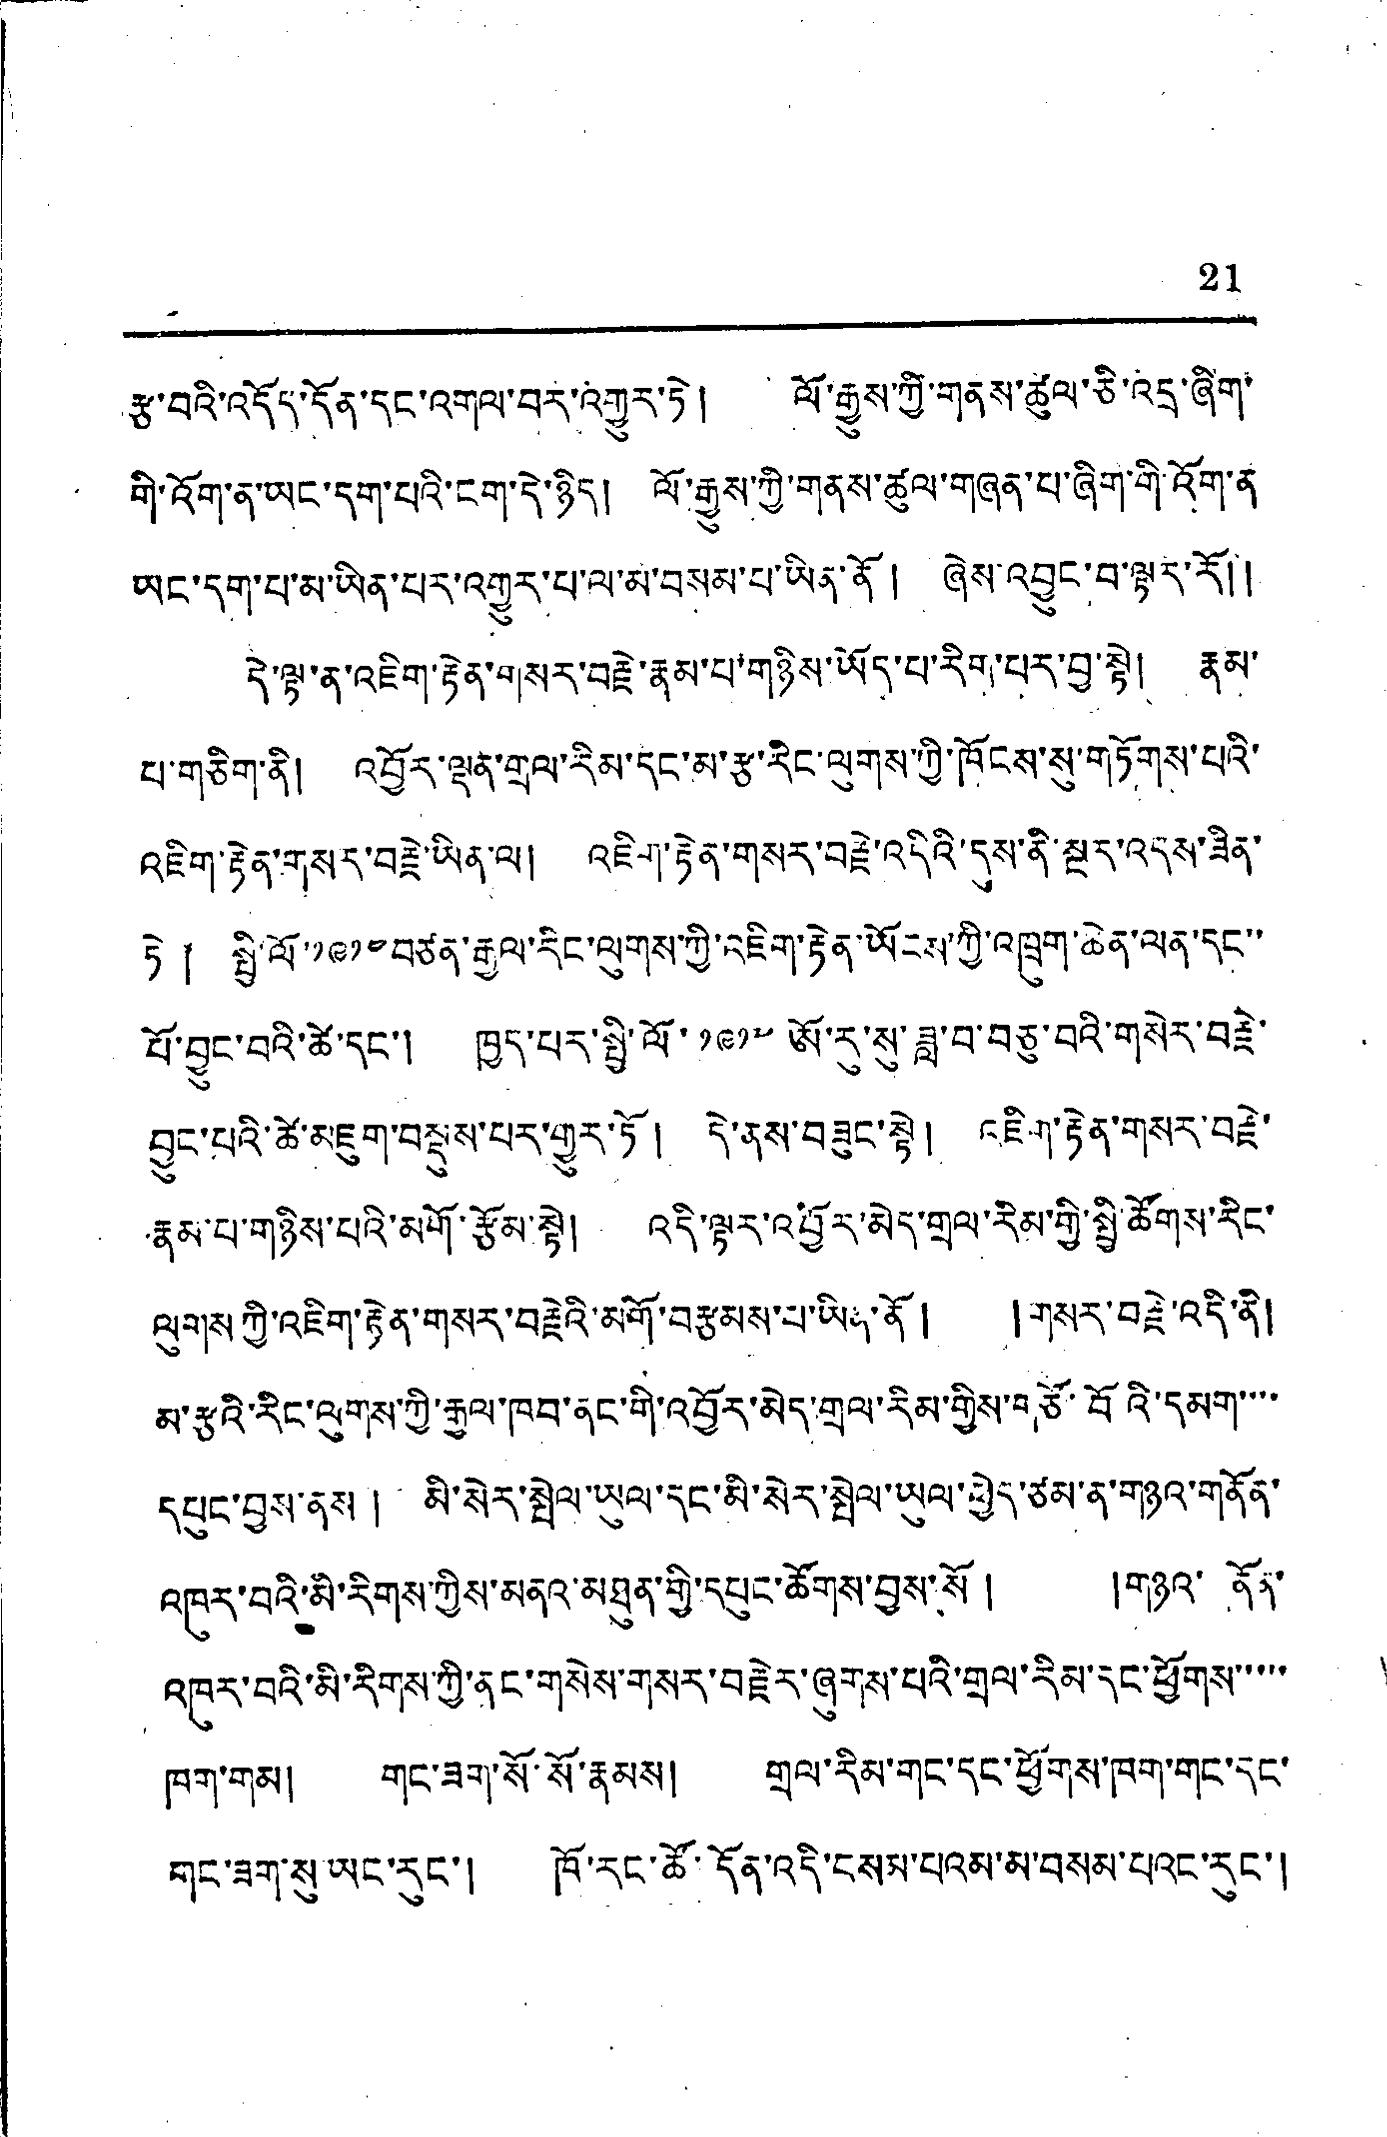21
རྩ་བའི་འདོད་དོན་དང་འགལ་བར་འགྱུར་ཏེ། ལོ་རྒྱུས་ཀྱི་གནས་ཚུལ་ཅི་འདྲ་ཞིག་
གི་འོག་ན་ཡང་དག་པའི་ངག་དེ་ཉིད། ལོ་རྒྱུས་ཀྱི་གནས་ཚུལ་གཞན་པ་ཞིག་གི་འོག་ན
ཡང་དག་པ་མ་ཡིན་པར་འགྱུར་པ་ལ་མ་བསམ་པ་ཡིན་ནོ ། ཞེས་འབྱུང་བ་ལྟར་རོ༎
དེ་ལྟ་ན་འཇིག་རྟེན་གསར་བརྗེ་རྣམ་པ་གཉིས་ཡོད་པ་རིག་པར་བྱ་སྟེ། རྣམ་
པ་གཅིག་ནི། འབྱོར་ལྡན་གྲལ་རིམ་དང་མ་རྩ་རིང་ལུགས་ཀྱི་ཁོངས་སུ་གཏོགས་པའི་
འཇིག་རྟེན་གསར་བརྗེ་ཡིན་ལ། འཇིག་རྟེན་གསར་བརྗེ་འདིའི་དུས་ནི་སྔར་འདས་ཟིན་
ཏེ ༐ སྤྱི་ལོ་༡༩༡༤ བཙན་རྒྱལ་རིང་ལུགས་ཀྱི་འཇིག་རྟེན་ཡོངས་ཀྱི་འཁྲུག་ཆེན་ལན་དང་་
པོ་བྱུང་བའི་ཚེ་དང་། ཁྱད་པར་སྤྱི་ལོ་ ༡༩༡༧ ཨོ་རུ་སུ་ཟླ་བ་བཅུ་བའི་གསེར་བརྗེ་
བྱུང་པའི་ཚེ་མཇུག་བསྡུས་པར་གྱུར་ཏོ ། དེ་ནས་བཟུང་སྟེ། འཇིག་རྟེན་གསར་བརྗེ་
རྣམ་པ་གཉིས་པའི་མགོ་རྩོམ་སྟེ། འདི་ལྟར་འབྱོར་མེད་གྲལ་རིམ་གྱི་སྤྱི་ཚོགས་རིང་
ལུགས་ཀྱི་འཇིག་རྟེན་གསར་བརྗེའི་མགོ་བརྩམས་པ་ཡིན་ནོ། །གསར་བརྗེ་འདི་ནི།
མ་རྩའི་རིང་ལུགས་ཀྱི་རྒྱལ་ཁབ་ནང་གི་འབྱོར་མེད་གྲལ་རིམ་གྱིས་གཙོ་བོའི་དམག་་་་
དཔུང་བྱས་ནས ། མི་སེར་སྤེལ་ཡུལ་དང་མི་སེར་སྤེལ་ཡུལ་ཕྱེད་ཙམ་ན་གཉའ་གནོན་
མཁུར་བའི་མི་རིགས་ཀྱིས་མནའ་མཐུན་གྱི་དཔུང་ཚོགས་བྱས་སོ ། །གཉའ་ ནོན་
འཁུར་བའི་མི་རིགས་ཀྱི་ནང་གསེས་གསར་བརྗེར་ཞུགས་པའི་གྲལ་རིམ་དང་ཕྱོགས་་་་་
ཁག་གམ། གང་ཟག་སོ་སོ་རྣམས། གྲལ་རིམ་གང་དང་ཕྱོགས་ཁག་གང་དང་
གང་ཟག་སུ་ཡང་རུང་། ཁོ་རང་ཚོ་དོན་འདི་བསམ་པའམ་མ་བསམ་པའང་རུང་།
